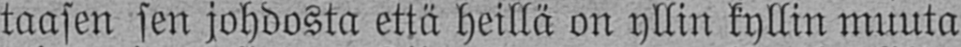taasen sen johdosta että heillä on yllin kyllin muuta
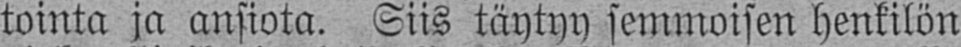tointa ja ansiota. Siis täytyy semmoisen henkilön
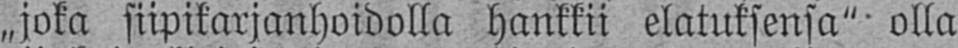„joka siipikarjanhoidolla hankkii elatuksensa"' olla
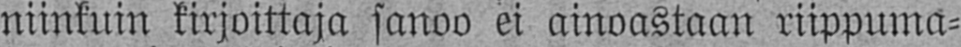niinkuin kirjoittaja sanoo ei ainoastaan riippuma-
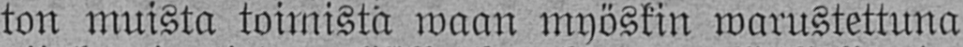ton muista toimista waan myöskin warustettuna
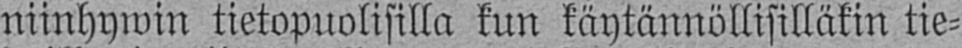niinhywin tietopuolisilla kun käytännöllisilläkin tie-
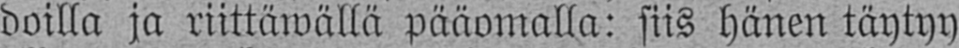doilla ja riittäwällä pääomalla: siis hänen täytyy
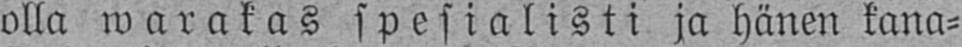olla warakas spesialisti ja hänen kana-
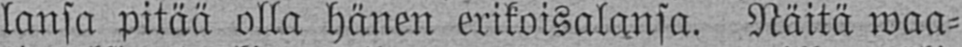lansa pitää olla hänen erikoisalansa. Näitä waa-
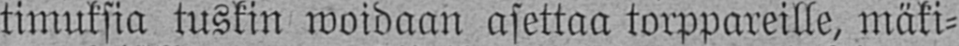timuksia tuskin woidaan asettaa torppareille, mäki-
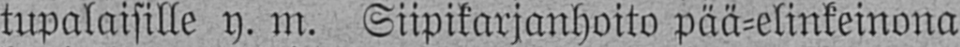tupalaisille y. m. Siipikarjanhoito pää-elinkeinona
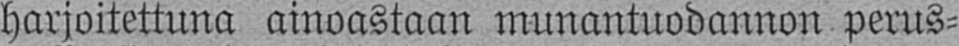harjoitettuna ainoastaan munantuodannon perus-
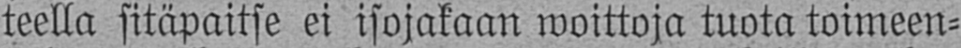teella sitäpaitse ei isojakaan woittoja tuota toimeen-
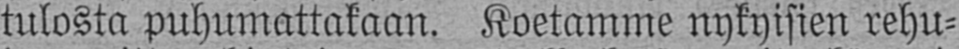tulosta puhumattakaan. Koetamme nykyisien rehu-
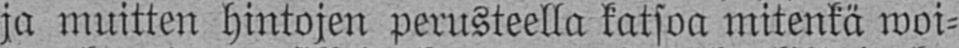ja muitten hintojen perusteella katsoa mitenkä woi-
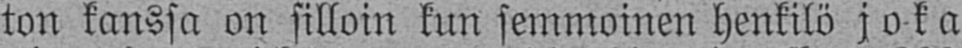ton kanssa on silloin kun semmoinen henkilö joka
